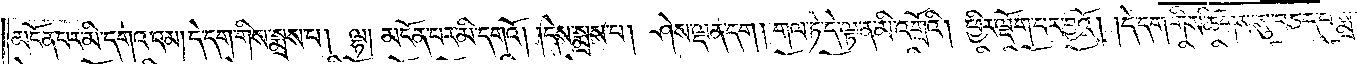མངོན་པར་མི་དགའ་འམ། དེ་དག་གིས་སྨྲས་པ། ལྷ། མངོན་པར་མི་དགའོ། །དེས་སྨྲས་པ། ཤེས་ལྡན་དག། གལ་ཏེ་དེ་ལྟ་ན་མི་འགྲོའི། ཕྱིར་ལྡོག་པར་བྱའོ། །དེ་དག་གིས་ཚིགས་སུ་བཅད་པ་སྨྲ
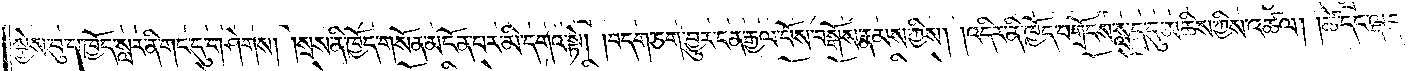སྐྱེས་བུ་པ་ཁྱོད་སླར་ནི་གང་དུ་གཤེགས། །སྲས་ནི་ཁྱོད་གསོན་མངོན་པར་མི་དགའ་སྟེ། །བདག་ཅག་བྱུར་ངན་རྒྱལ་པོས་བསྒོས་རྣམས་ཀྱིས། །འདིར་ནི་ཁྱོད་བགྲོངས་སླད་དུ་མཆིས་ཀྱིས་འཚལ། །ཚེ་དང་ལྡན་
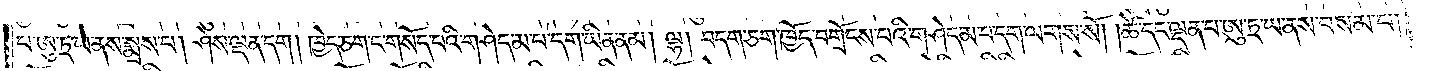པ་ཨུ་ཏྲ་ཡ་ནས་སྨྲས་པ། ཤེས་ལྡན་དག། ཁྱེད་ཅག་ང་གསོད་པའི་གཤེད་མ་པ་དག་ཡིན་ནམ། ལྷ། བདག་ཅག་ཁྱོད་བགྲོངས་པའི་གཤེད་མ་པ་དག་ལགས་སོ། །ཚེ་དང་ལྡན་པ་ཨུ་ཏྲ་ཡ་ནས་བསམ་པ།
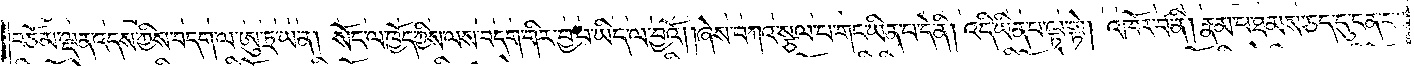བཅོམ་ལྡན་འདས་ཀྱིས་བདག་ལ་ཨུ་ཏྲ་ཡ་ན། སོང་ལ་ཁྱོད་ཀྱིས་ལས་བདག་གིར་བྱ་བ་ཡིད་ལ་བྱའོ། །ཞེས་བཀའ་སྩལ་པ་གང་ཡིན་པ་དེ་ནི། འདི་ཡིན་པ་ལྟ་སྟེ། འཁོར་བ་ནི། རྣམ་པ་ཐམས་ཅད་དུ་ངན་པ།
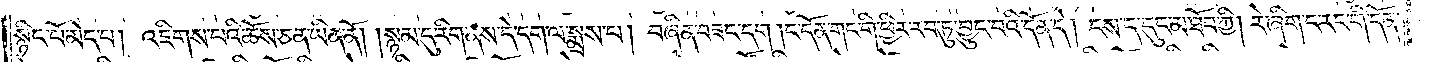སྙིང་པོ་མེད་པ། འཇིགས་པའི་ཆོས་ཅན་ཡིན་ནོ། །སྙམ་དུ་རིག་ནས་དེ་དག་ལ་སྨྲས་པ། བཞིན་བཟང་དང༌། ང་དོན་གང་གི་ཕྱིར་རབ་ཏུ་བྱུང་བའི་དོན་དེ། ངས་ད་དུང་མ་ཐོབ་ཀྱི། རེ་ཞིག་ང་རང་གི་དོན་
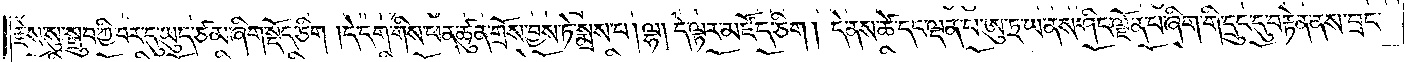རྗེས་སུ་སྒྲུབ་ཀྱི་བར་དུ་ཡུད་ཙམ་ཞིག་སྡོད་ཅིག །དེ་དག་གིས་ཕན་ཚུན་གྲོས་བྱས་ཏེ་སྨྲས་པ། ལྷ། དེ་ལྟར་མཛོད་ཅིག། དེ་ནས་ཚེ་དང་ལྡན་པ་ཨུ་ཏྲ་ཡ་ནས་ཤིང་ལྗོན་པ་ཞིག་གི་དྲུང་དུ་བརྟེན་ནས་བྲང་
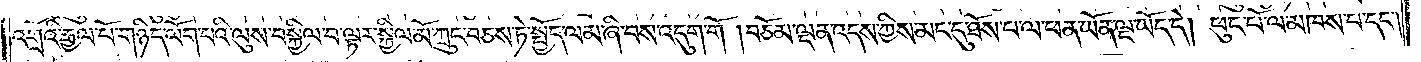འགྲོའི་རྒྱལ་པོ་གཉིད་ལོག་པའི་ལུས་བསྐྱིལ་བ་ལྟར་སྐྱིལ་མོ་ཀྲུང་བཅས་ཏེ་སྤྱོད་ལམ་ཞི་བས་འདུག་གོ །བཅོམ་ལྡན་འདས་ཀྱིས་མང་དུ་ཐོས་པ་ལ་ཕན་ཡོན་ལྔ་ཡོད་དེ། ཕུང་པོ་ལ་མཁས་པ་དང༌།
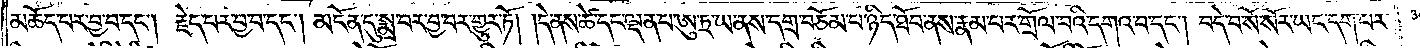མཆོད་པར་བྱ་བ་དང༌། རྗེད་པར་བྱ་བ་དང༌། མངོན་དུ་སྨྲ་བར་བྱ་བར་གྱུར་ཏོ། །དེ་ནས་ཚེ་དང་ལྡན་པ་ཨུ་ཏྲ་ཡ་ནས་དགྲ་བཅོམ་པ་ཉིད་ཐོབ་ནས་རྣམ་པར་གྲོལ་བའི་དགའ་བ་དང༌། བདེ་བ་སོ་སོར་ཡང་དག་པར་
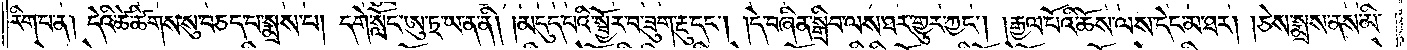རིག་པ་ན། དེའི་ཚེ་ཚིགས་སུ་བཅད་པ་སྨྲས་པ། དགེ་སློང་ཨུ་ཏྲ་ཡ་ན་ནི། །མདུད་པའི་སྦྱོར་བ་ཟུག་རྔུ་དང༌། །དེ་བཞིན་སྒྲིབ་ལས་ཐར་གྱུར་ཀྱང༌། །རྒྱལ་པོའི་ཆོས་ལས་དེང་མཐར། །ཅེས་སྨྲས་ནས་མི་
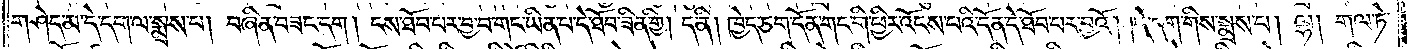གཤེད་མ་དེ་དག་ལ་སྨྲས་པ། བཞིན་བཟང་དག །ངས་ཐོབ་པར་བྱ་བ་གང་ཡིན་པ་དེ་ཐོབ་ཟིན་གྱི། ད་ནི། ཁྱེད་ཅག་དོན་གང་གི་ཕྱིར་འོངས་པའི་དོན་དེ་ཐོབ་པར་བྱའོ། །དེ་དག་གིས་སྨྲས་པ། ལྷ། གལ་ཏེ་
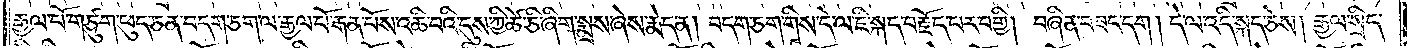རྒྱལ་པོ་གཙུག་ཕུད་ཅན་བདག་ཅག་ལ་རྒྱལ་པོ་རྒན་པོས་འཆི་བའི་དུས་ཀྱི་ཚེ་ཅི་ཞིག་སྨྲས་ཞེས་རྨེད་ན། བདག་ཅག་གིས་དེ་ལ་ཇི་སྐད་བརྗོད་པར་བགྱི། བཞིན་བཟང་དག། དེ་ལ་འདི་སྐད་ཅེས། རྒྱལ་སྲིད་
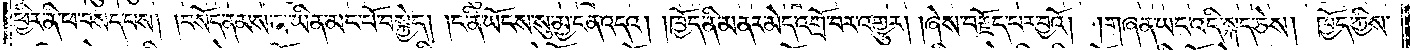ཕྱིར་ནི་ཕ་བསད་པས། །བསོད་ནམས་མ་ཡིན་མང་པོ་བསྐྱེད། །ང་ནི་ཡོངས་སུ་མྱ་ངན་འདའ། །ཁྱོད་ནི་མནར་མེད་འགྲོ་བར་འགྱུར། །ཞེས་བརྗོད་པར་བྱའོ། །གཞན་ཡང་འདི་སྐད་ཅེས། ཁྱོད་ཀྱིས་
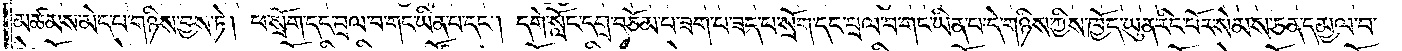མཚམས་མེད་པ་གཉིས་བྱས་ཏེ། ཕ་སྲོག་དང་བྲལ་བ་གང་ཡིན་པ་དང༌། དགེ་སློང་དགྲ་བཅོམ་པ་ཟག་པ་ཟད་པ་སྲོག་དང་བྲལ་བ་གང་ཡིན་པ་དེ་གཉིས་ཀྱིས་ཁྱོད་ཡུན་རིང་པོར་སེམས་ཅན་དམྱལ་བ་
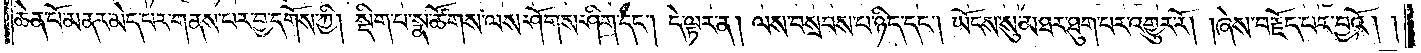ཆེན་པོ་མནར་མེད་པར་གནས་པར་བྱ་དགོས་ཀྱི། སྡིག་པ་སྣ་ཚོགས་ལས་ཤོགས་ཤིག་དང༌། དེ་ལྟར་ན། ལས་བསྲབས་པ་ཉིད་དང༌། ཡོངས་སུ་མཐར་ཐུག་པར་འགྱུར་རོ། །ཞེས་བརྗོད་པར་བྱའོ། །
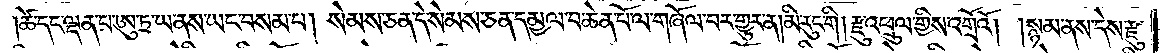ཚེ་དང་ལྡན་པ་ཨུ་ཏྲ་ཡ་ནས་ཡང་བསམ་པ། སེམས་ཅན་དེ་སེམས་ཅན་དམྱལ་བ་ཆེན་པོ་ལ་གཞོལ་བར་གྱུར་ན། མི་རུང་གི །རྫུ་འཕྲུལ་གྱིས་འགྲོའོ། །སྙམ་ནས་དེས་རྫུ་
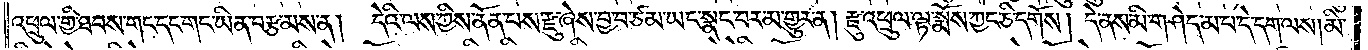འཕྲུལ་གྱི་ཐབས་གང་དང་གང་ཡིན་བརྩམས་ན། དེའི་ལས་ཀྱིས་ནོན་པས་རྫུ་ཞེས་བྱ་བ་ཙམ་ཡང་སྣང་བར་མ་གྱུར་ན། རྫུ་འཕྲུལ་ལྟ་སྨོས་ཀྱང་ཅི་དགོས། དེ་ནས་མི་གཤེད་མ་པ་དེ་དག་ལས། མི་
